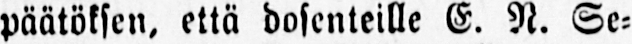päätöksen, että dosenteille E. N. Se-
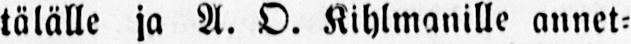tälälle ja A. O. Kihlmanille annet-
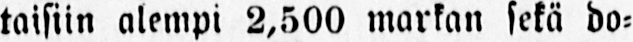taisiin alempi 2,500 markan sekä do-
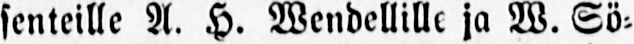senteille A. H. Wendellille ja W. Sö-
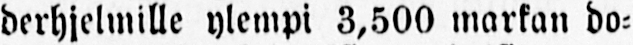derhjelmille ylempi 3,500 markan do-
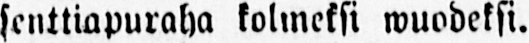senttiapuraha kolmeksi wuodeksi.
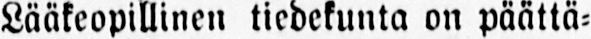Lääkeopillinen tiedekunta on päättä-
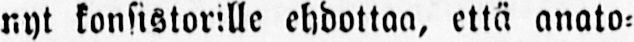nyt konsistorille ehdottaa, että anato-
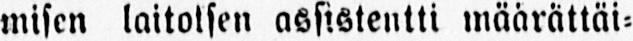misen laitolsen assistentti määrättäi-
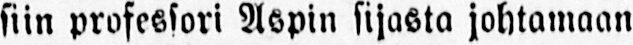siin prosessori Aspin sijasta johtamaan
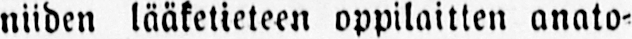niiden lääketieteen oppilaitten anato-
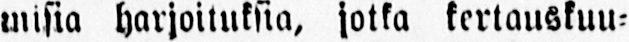misia harjoituksia, jotka kertauskuu-
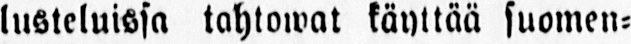lusteluissa tahtowat käyttää suomen-
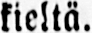kieltä.
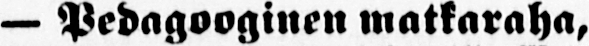— Pedagooginen matkaraha,
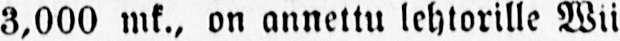3,000 mk., on annettu lehtorille Wii-
